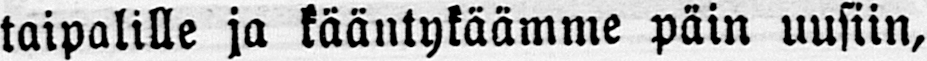taipalille ja kääntykäämme päin uusiin,
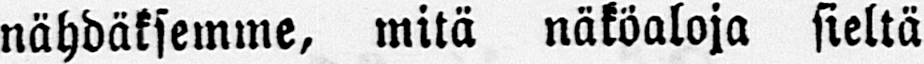nähdäksemme, mitä näköaloja sieltä
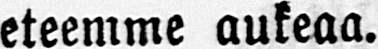eteemme aukeaa.
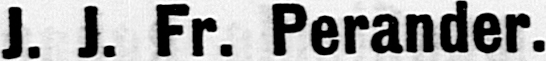J. J. Fr. Perander.
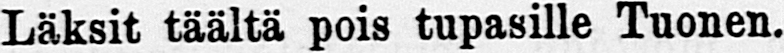Läksit täältä pois tupasille Tuonen.
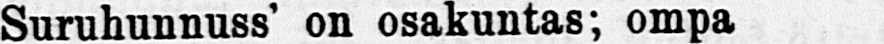Suruhunnuss' on osakuntas; ompa
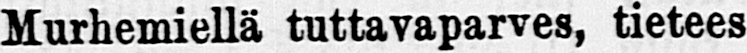Murhemiellä tuttavaparves, tietees
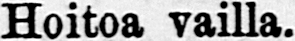Hoitoa vailla.
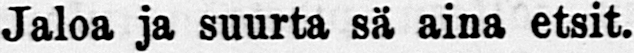Jaloa ja suurta sä aina etsit.
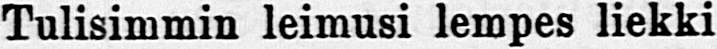Tulisimmin leimusi lempes liekki
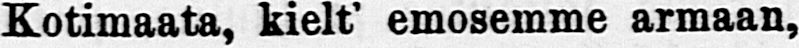Kotimaata, kielt' emosemme armaan,
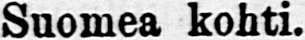Suomea kohti.
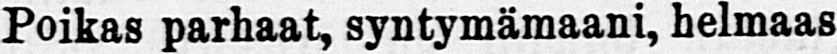Poikas parhaat, helmaas
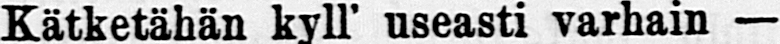Kätketähän kyll' useasti varkain —
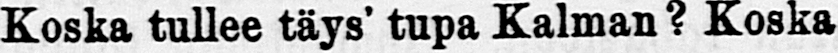Koska tullee täys' tupa Kalman? Loska
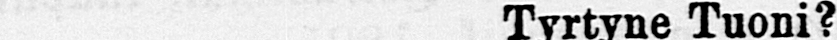Tyrtyne Tuoni?
